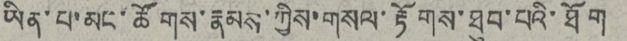ཡིན་པ་མང་ཚོགས་རྣམས་ཀྱིས་གསལ་རྟོགས་ཐུབ་པའི་ཐོག
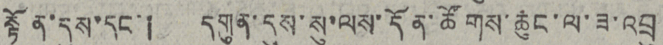སྟོན་དུས་དང་། དགུན་དུས་སུ་ལས་དོན་ཚོགས་ཆུང་ལ་ཟ་འབྲུ
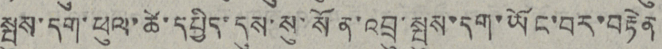སྤུས་དག་ཕུལ་ཚེ་དཔྱིད་དུས་སུ་སོན་འབྲུ་སྤུས་དག་ཡོང་བར་བརྟེན་
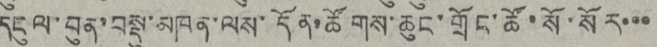དངུལ་བུན་བསྡུ་མཁན་ལས་དོན་ཚོགས་ཆུང་གྲོང་ཚོ་སོ་སོར་་་
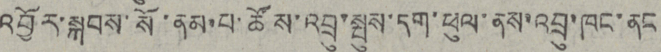འབྱོར་སྐབས་སོ་ནམ་པ་ཚོས་འབྲུ་སྤུས་དག་ཕུལ་ནས་འབྲུ་ཁང་ནང
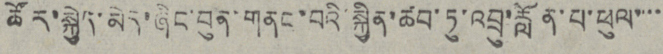ཚོར་སྐྱེད་མེད་ཞིང་བུན་གནང་བའི་སྐྱིན་ཚབ་ཏུ་འབྲུ་རློན་པ་ཕུལ་་་
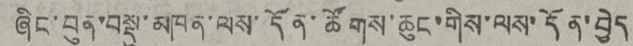ཞིང་བུན་བསྡུ་མཁན་ལས་དོན་ཚོགས་ཆུང་གིས་ལས་དོན་བྱེད་
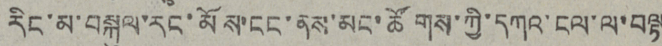རིང་མ་བསྐུལ་རང་མོས་ངང་ནས་མང་ཚོགས་ཀྱི་དཀའ་ངལ་ལ་བལྟ
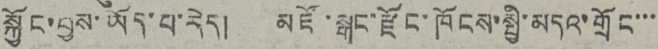སྐྱོང་བྱས་ཡོད་པ་རེད། མཛོ་སྒང་རྫོང་ཁོངས་སྤྱི་མདའ་གྲོང་་
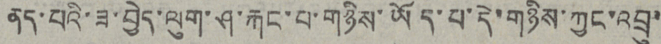ནད་པའི་ཟ་བྱེད་ལུག་ཤ་རྐང་བ་གཉིས་ཡོད་པ་དེ་གཉིས་ཀྱང་འབྲུ་
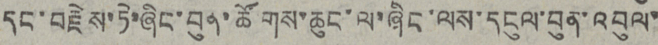དང་བརྗེས་ཏེ་ཞིང་བུན་ཚོགས་ཆུང་ལ་ཞིང་ལས་དངུལ་བུན་འབུལ་་
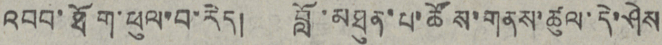འབབ་ཐོག་ཕུལ་བ་རེད། བློ་མཐུན་པ་ཚོས་གནས་ཚུལ་དེ་ཤེས
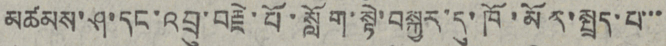མཚམས་ཤ་དང་འབྲུ་བརྗེ་པོ་སློག་སྟེ་བསྐྱར་དུ་ཁོ་མོར་སྤྲད་པ་་་
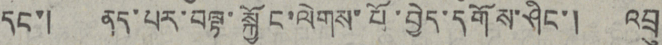དང་། ནད་པར་བལྟ་སྐྱོང་ལེགས་པོ་བྱེད་དགོས་ཤིང་། འདྲུ
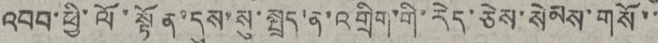འབབ་ཕྱི་ལོ་སྟོན་དུས་སུ་སྤྲད་ན་འགྲིག་གི་རེད་ཅེས་སེམས་གསོ་་་
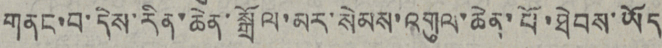གནང་བ་དེས་རིན་ཆེན་སྒྲོལ་མར་སེམས་འགུལ་ཆེན་པོ་ཐེབས་ཡོད
